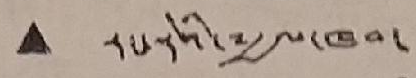• རང་རེའི་༸རྒྱལ་ཁབ་
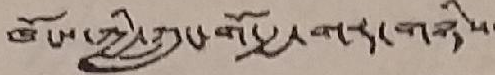ཁོངས་ཀྱི་ཀྲུང་གོ་རྒྱ་གར་གཉིས་
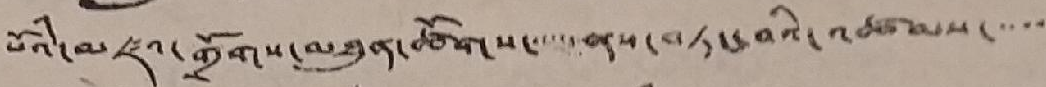པོའི་མཛའ་གྲོགས་མཐུན་ཚོགས་་་་་ནས་བཏང་བའི་འཚམས་་་་་
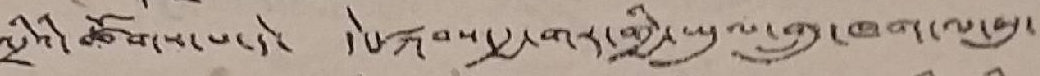འདྲིའི་ཚོགས་པ་དེ་ དེང་སྐབས་རྒྱ་གར་གྱི་ཡུལ་གྲུ་ཁག་ལ་མུ་
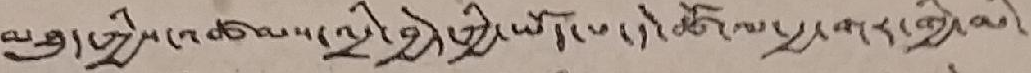མཐུད་ཀྱིས་འཚམས་འདྲི་བྱེད་ཀྱི་ཡོད་པ་དེ་ཚོ་ལ་རྒྱ་གར་གྱི་མི་
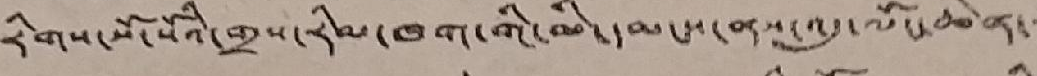རིགས་སོ་སོའི་གྲས་རིམ་ཁག་གི་མི་དམངས་ནས་འདུ་ལོང་ཆེན་
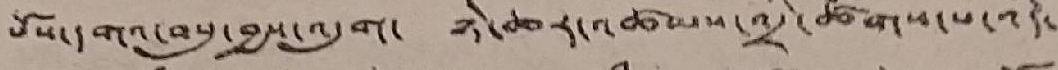པོས་དགའ་བསུ་བྱས་འདུག་ ཉེ་ཆར་འཚམས་འདྲི་ཚོགས་པ་འདི་
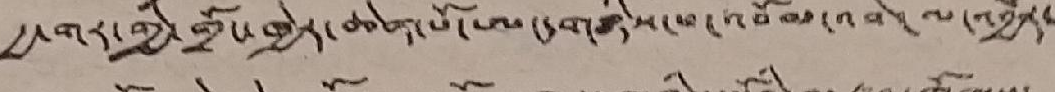རྒྱ་གར་གྱི་གྲོང་ཁྱེར་ཆེན་པོ་ཨང་གཉིས་པ་འབོམ་འབེ་ལ་འབྱོར་
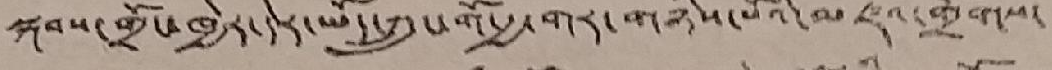སྐབས་གྲོང་ཁྱེར་དེར་ཡོད་ཀྲུང་གོ་རྒྱ་གར་གཉིས་པོའི་མཛའ་གྲོགས་
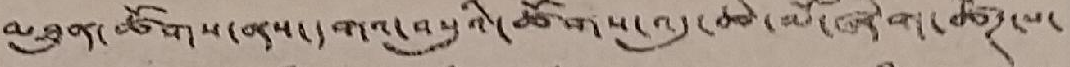མཐུན་ཚོགས་ནས་དགའ་བསུའི་ཚོགས་འདུ་ཆེ་མོ་ཞིག་ཚོཊ་པ་
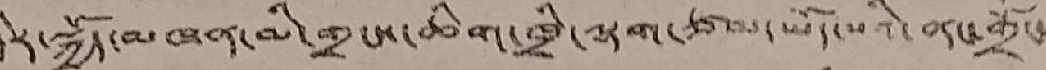དེར་སྐྱོད་མཁན་མི་གྲངས་ཆིག་ཁྲི་ལྷག་ཙམ་ཡོད་པའི་ནང་གྲོང་
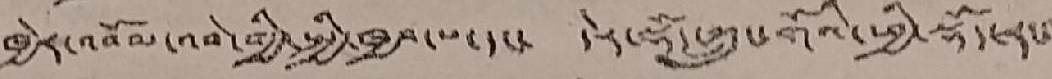ཁྱེར་འབོམ་འབེ་གྱི་སྤྱི་ཁྱབ་པ་དང་ དེར་སྡོད་ཀྲུང་གོའི་ཕྱི་སྡོད་རང་
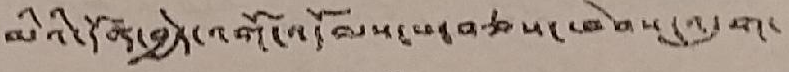མིའི་དོན་བྱེད་འགོ་འདོམས་པ་བཅས་ཕེབས་འདུག་
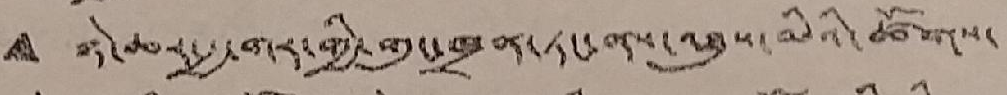• ཉེ་ཆར་རྒྱ་གར་གྱི་གུང་ཁྲན་ཏང་ནས་འཐུས་མིའི་ཚོགས་
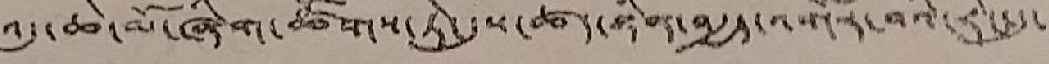འདུ་ཆེ་མོ་ཞིག་ཚོགས་ཏེ་དུས་ཚད་ཉིན་བརྒྱད་འགོར་བའི་རིང་དུ་
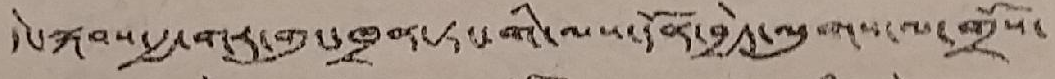དེང་སྐབས་རྒྱ་གར་གུང་ཁྲན་ཏང་གི་ལས་དོན་བྱེད་ལུགས་ལ་གྲོས་
